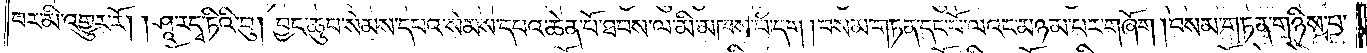བར་མི་འགྱུར་རོ། །ཤཱ་རདྭ་ཏིའི་བུ། བྱང་ཆུབ་སེམས་དཔའ་སེམས་དཔའ་ཆེན་པོ་ཐབས་ལ་མི་མཁས་པ་དག །བསམ་གཏན་དང་པོ་ལའང་མཉམ་པར་གཞོག །བསམ་གཏན་གཉིས་པ་
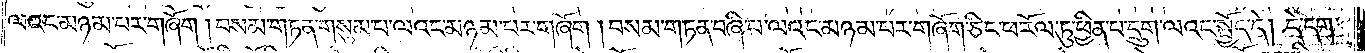ལའང་མཉམ་པར་གཞོག །བསམ་གཏན་གསུམ་པ་ལའང་མཉམ་པར་གཞོག །བསམ་གཏན་བཞི་པ་ལའང་མཉམ་པར་གཞོག་ཅིང་ཕ་རོལ་ཏུ་ཕྱིན་པ་དྲུག་ལའང་སྤྱོད་དེ། དེ་དག་
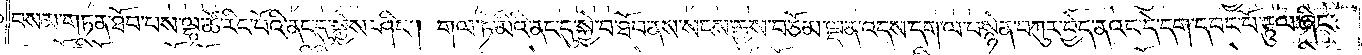བསམ་གཏན་ཐོབ་པས་ལྷ་ཚེ་རིང་པོའི་ནང་དུ་སྐྱེས་ཤིང༌། གལ་ཏེ་མིའི་ནང་དུ་སྐྱེ་བ་ཐོབ་ནས་སངས་རྒྱས་བཅོམ་ལྡན་འདས་དག་ལ་བསྙེན་བཀུར་བྱེད་ནའང་དེ་དག་དབང་པོ་རྟུལ་ཞིང་
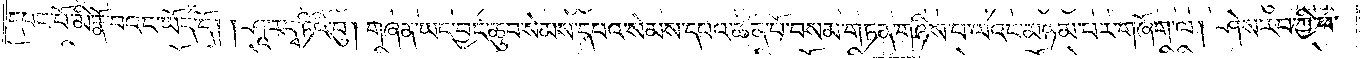དབང་པོ་མི་རྣོ་བའང་ཡོད་དོ། །ཤཱ་ར་དྭ་ཏིའི་བུ། གཞན་ཡང་བྱང་ཆུབ་སེམས་དཔའ་སེམས་དཔའ་ཆེན་པོ་བསམ་གཏན་གཉིས་པ་ལའང་མཉམ་པར་གཞོག་ལ། ཤེས་རབ་ཀྱི་ཕ་
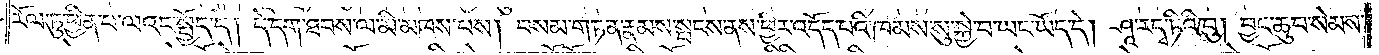རོལ་ཏུ་ཕྱིན་པ་ལའང་སྤྱོད་དེ། དེ་དག་ཐབས་ལ་མི་མཁས་པས། བསམ་གཏན་རྣམས་སྤངས་ནས་ཕྱིར་འདོད་པའི་ཁམས་སུ་སྐྱེ་བ་ཡང་ཡོད་དེ། ཤཱ་ར་དྭ་ཏིའི་བུ། བྱང་ཆུབ་སེམས་
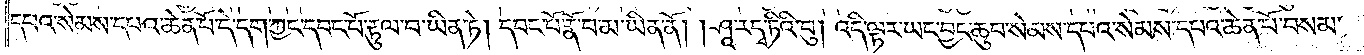དཔའ་སེམས་དཔའ་ཆེན་པོ་དེ་དག་ཀྱང་དབང་པོ་རྟུལ་བ་ཡིན་ཏེ། དབང་པོ་རྣོ་བ་མ་ཡིན་ནོ། །ཤཱ་ར་དྭ་ཏིའི་བུ། འདི་ལྟར་ཡང་བྱང་ཆུབ་སེམས་དཔའ་སེམས་དཔའ་ཆེན་པོ་བསམ་
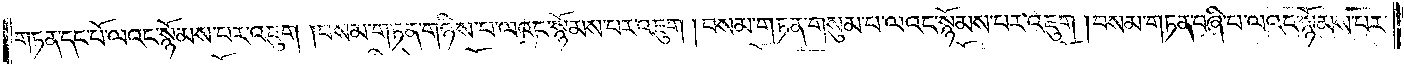གཏན་དང་པོ་ལའང་སྙོམས་པར་འཇུག །བསམ་གཏན་གཉིས་པ་ལའང་སྙོམས་པར་འཇུག །བསམ་གཏན་གསུམ་པ་ལའང་སྙོམས་པར་འཇུག །བསམ་གཏན་བཞི་པ་ལའང་སྙོམས་པར་
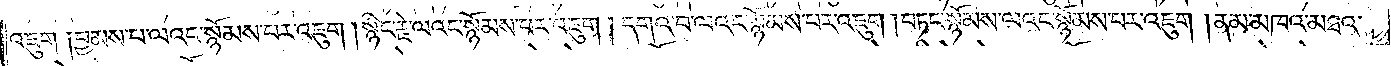འཇུག་༑བྱམས་པ་ལའང་སྙོམས་པར་འཇུག །སྙིང་རྗེ་ལའང་སྙོམས་པར་འཇུག། དགའ་བ་ལའང་སྙོམས་པར་འཇུག །བཏང་སྙོམས་ལའང་སྙོམས་པར་འཇུག །ནམ་མཁའ་མཐའ་
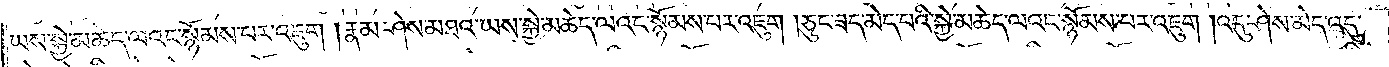ཡས་སྐྱེ་མཆེད་ལའང་སྙོམས་པར་འཇུག །རྣམ་ཤེས་མཐའ་ཡས་སྐྱེ་མཆེད་ལའང་སྙོམས་པར་འཇུག །ཅུང་ཟད་མེད་པའི་སྐྱེ་མཆེད་ལའང་སྙོམས་པར་འཇུག །འདུ་ཤེས་མེད་འདུ་
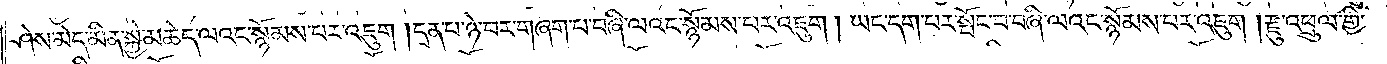ཤེས་མེད་མིན་སྐྱེ་མཆེད་ལའང་སྙོམས་པར་འཇུག །དྲན་པ་ཉེ་བར་གཞག་པ་བཞི་ལའང་སྙོམས་པར་འཇུག། ཡང་དག་པར་སྤོང་བ་བཞི་ལའང་སྙོམས་པར་འཇུག །རྫུ་འཕྲུལ་གྱི་
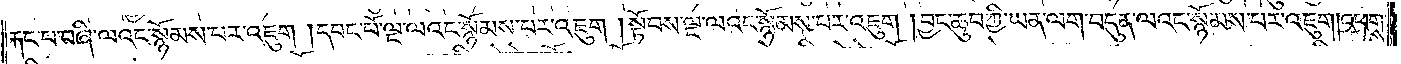རྐང་པ་བཞི་ལའང་སྙོམས་པར་འཇུག །དབང་པོ་ལྔ་ལའང་སྙོམས་པར་འཇུག །སྟོབས་ལྔ་ལའང་སྙོམས་པར་འཇུག །བྱང་ཆུབ་ཀྱི་ཡན་ལག་བདུན་ལའང་སྙོམས་པར་འཇུག །འཕགས་
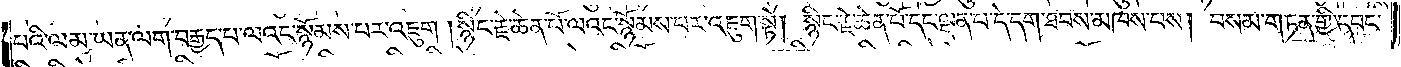པའི་ལམ་ཡན་ལག་བརྒྱད་པ་ལའང་སྙོམས་པར་འཇུག །སྙིང་རྗེ་ཆེན་པོ་ལའང་སྙོམས་པར་འཇུག་སྟེ། སྙིང་རྗེ་ཆེན་པོ་དང་ལྡན་པ་དེ་དག་ཐབས་མཁས་པས། བསམ་གཏན་གྱི་དབང་
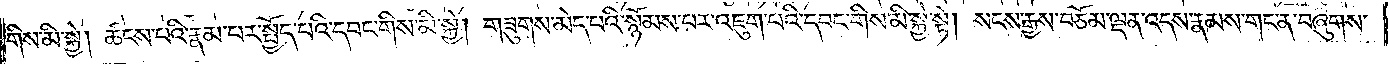གིས་མི་སྐྱེ། ཚངས་པའི་རྣམ་པར་སྤྱོད་པའི་དབང་གིས་མི་སྐྱེ། གཟུགས་མེད་པའི་སྙོམས་པར་འཇུག་པའི་དབང་གིས་མི་སྐྱེ་སྟེ། སངས་རྒྱས་བཅོམ་ལྡན་འདས་རྣམས་གང་ན་བཞུགས་
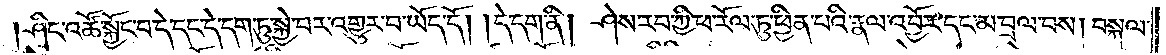ཤིང་འཚོ་སྐྱོང་བ་དེ་དང་དེ་དག་ཏུ་སྐྱེ་བར་འགྱུར་བ་ཡོད་དོ། །དེ་དག་ནི། ཤེས་རབ་ཀྱི་ཕ་རོལ་ཏུ་ཕྱིན་པའི་རྣལ་འབྱོར་དང་མ་བྲལ་བས། བསྐལ་
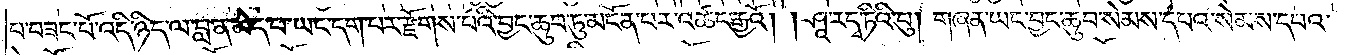པ་བཟང་པོ་འདི་ཉིད་ལ་བླ་ན་མེད་པ་ཡང་དག་པར་རྫོགས་པའི་བྱང་ཆུབ་ཏུ་མངོན་པར་འཚང་རྒྱའོ། །ཤཱ་རདྭ་ཏིའི་བུ། གཞན་ཡང་བྱང་ཆུབ་སེམས་དཔའ་སེམས་དཔའ་
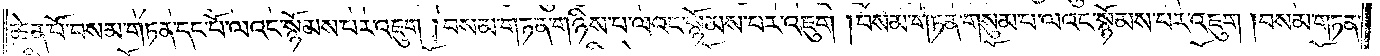ཆེན་པོ་བསམ་གཏན་དང་པོ་ལའང་སྙོམས་པར་འཇུག །བསམ་གཏན་གཉིས་པ་ལའང་སྙོམས་པར་འཇུག །བསམ་གཏན་གསུམ་པ་ལའང་སྙོམས་པར་འཇུག །བསམ་གཏན་
